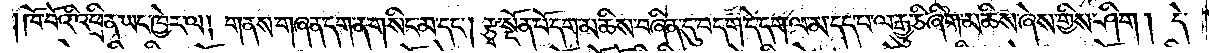ཁོ་བོའི་འཕྲིན་ཡང་ཁྱེར་ལ། གནས་གཞན་དག་ན་གསིང་མ་དང༌། རྩྭ་སྔོན་པོ་དག་མཆིས་བཞིན་དུ་བདག་དེ་དག་ལ་མ་དད་པ་ལ་རྒྱུ་ཅི་ཞིག་མཆིས་ཞེས་གྱིས་ཤིག །དེ་
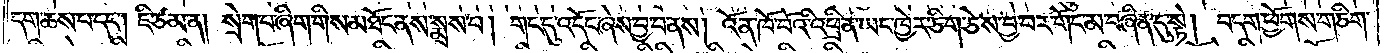དག་ཆས་པ་དང༌། ཇི་ཙམ་ན། སྲེག་པ་ཞིག་གིས་མཐོང་ནས་སྨྲས་པ། གང་དུ་འདོང་ཞེས་བྱ་བ་ནས། འོ་ན་ཁོ་བོའི་འཕྲིན་ཡང་ཁྱེར་ཅིག་ཅེས་བྱ་བར་གོང་མ་བཞིན་དུ་སྟེ། བདག་ཕྱོགས་གཅིག་
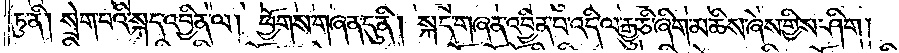ཏུ་ནི། སྲེག་པའི་སྐད་འབྱིན་ལ། ཕྱོགས་གཞན་དུ་ནི། སྐད་གཞན་འབྱིན་པ་འདི་ལ་རྒྱུ་ཅི་ཞིག་མཆིས་ཞེས་གྱིས་ཤིག།
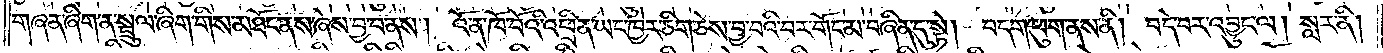གཞན་ཞིག་ན་སྦྲུལ་ཞིག་གིས་མཐོང་ནས་ཞེས་བྱ་བ་ནས། འོ་ན་ཁོ་བོའི་འཕྲིན་ཡང་ཁྱེར་ཅིག་ཅེས་བྱ་བའི་བར་གོང་མ་བཞིན་དུ་སྟེ། བདག་ཕུག་ནས་ནི། བདེ་བར་འབྱུང་ལ། སླར་ནི།
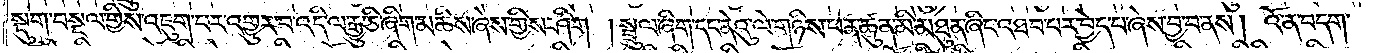སྡུག་བསྔལ་གྱིས་འཇུག་པར་འགྱུར་བ་འདི་ལ་རྒྱུ་ཅི་ཞིག་མཆིས་ཞེས་གྱིས་ཤིག །སྦྲུལ་ཞིག་དང་ནེའུ་ལེ་གཉིས་ཕན་ཚུན་མི་མཐུན་ཞིང་འཐབ་པར་བྱེད་པ་ཞེས་བྱ་བ་ནས། འོ་ན་བདག་
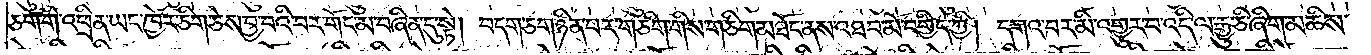ཅག་གི་འཕྲིན་ཡང་ཁྱེར་ཅིག་ཅེས་བྱ་བའི་བར་གོང་མ་བཞིན་དུ་སྟེ། བདག་ཅག་ཉིན་པར་གཅིག་གིས་གཅིག་མཐོང་ནས་འཐབ་མོ་བགྱིད་ཀྱི། དགའ་བར་མི་འགྱུར་བ་འདི་ལ་རྒྱུ་ཅི་ཞིག་མཆིས་
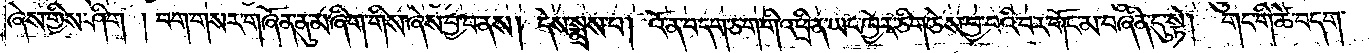ཞེས་གྱིས་ཤིག །བག་གསར་གཞོན་ནུ་མ་ཞིག་གིས་ཞེས་བྱ་བ་ནས། དེས་སྨྲས་པ། འོ་ན་བདག་ཅག་གི་འཕྲིན་ཡང་ཁྱེར་ཅིག་ཅེས་བྱ་བའི་བར་གོང་མ་བཞིན་དུ་སྟེ། གང་གི་ཚེ་བདག་
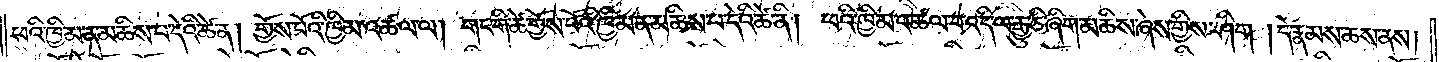ཕའི་ཁྱིམ་ན་མཆིས་པ་དེའི་ཚེ་ན། གྱོས་པོའི་ཁྱིམ་འཚལ་ལ། གང་གི་ཚེ་གྱོས་པོའི་ཁྱིམ་ན་མཆིས་པ་དེའི་ཚེ་ནི། ཕའི་ཁྱིམ་འཚལ་བ་འདི་ལ་རྒྱུ་ཅི་ཞིག་མཆིས་ཞེས་གྱིས་ཤིག །དེ་རྣམས་ཆས་ནས།
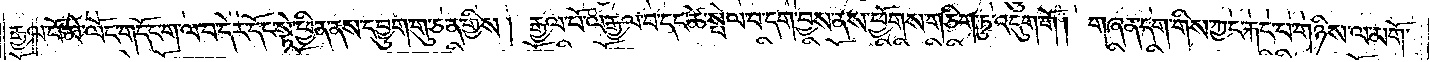རྒྱལ་པོ་མེ་ལོང་གདོང་ག་ལ་བ་དེར་དོང་སྟེ་ཕྱིན་ནས་དབྱུག་གུ་ཅན་གྱིས། རྒྱལ་པོ་ལ་རྒྱལ་བ་དང་ཚེ་སྤེལ་བ་དག་བྱས་ནས་ཕྱོགས་གཅིག་ཏུ་འདུག་གོ། གཞན་དག་གིས་ཀྱང་རྐང་པ་གཉིས་ལ་མགོ་
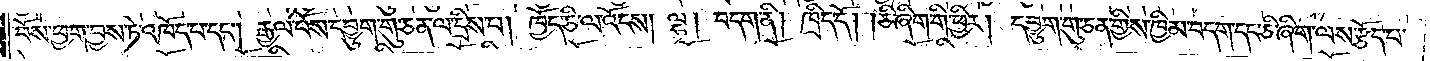བོས་ཕྱག་བྱས་ཏེ་འཁོད་པ་དང༌། རྒྱལ་པོས་དབྱུག་གུ་ཅན་ལ་དྲིས་པ། ཁྱོད་ཅི་ལ་འོངས། ལྷ། བདག་ནི། ཁྲིད་དོ། །ཅི་ཞིག་གི་ཕྱིར། དབྱུག་གུ་ཅན་གྱིས་ཁྱིམ་བདག་དང་ཅི་ཞིག་ལས་རྩོད་པ་
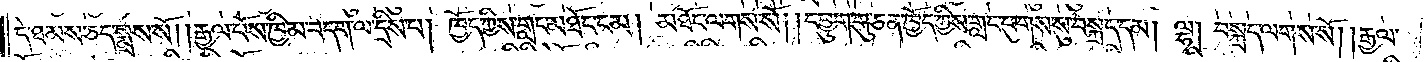དེ་ཐམས་ཅད་སྨྲས་སོ། །རྒྱལ་པོས་ཁྱིམ་བདག་ལ་དྲིས་པ། ཁྱོད་ཀྱིས་གླང་མཐོང་ངམ། མཐོང་ལགས་སོ། །དབྱུག་གུ་ཅན་ཁྱོད་ཀྱིས་གླང་ཕུགས་སུ་བསྐྲད་དམ། ལྷ། བསྐྲད་ལགས་སོ། །རྒྱལ་
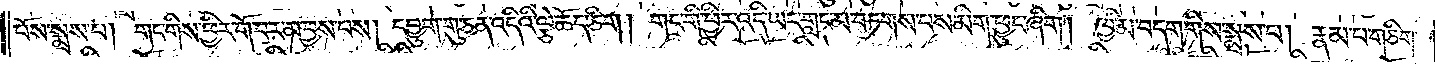པོས་སྨྲས་པ། གང་གིས་ཕྱིར་གོ་བར་མ་བྱས་བས། དབྱུག་གུ་ཅན་འདིའི་ལྕེ་ཆོད་ཅིག །གང་གི་ཕྱིར་འདི་ཡང་གླང་མ་བཏགས་པས་མིག་ཕྱུང་ཞིག །ཁྱིམ་བདག་གིས་སྨྲས་པ། རྣམ་པ་གཅིག་
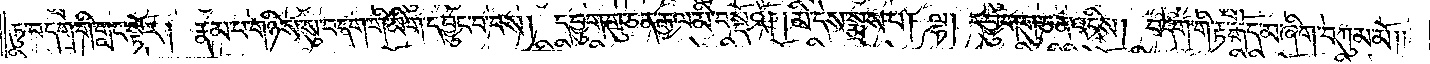ཏུ་བདག་གི་གླང་སྟོར། རྣམ་པ་གཉིས་སུ་བདག་གི་མིག་དབྱུང་བ་བས། དབྱུག་གུ་ཅན་རྒྱལ་མི་བསྡོའོ། །མི་དེས་སྨྲས་པ། ལྷ། དབྱུག་གུ་ཅན་འདིས། བདག་གི་རྟ་རྒོད་མ་ཞིག་བཀུམ་མོ༎
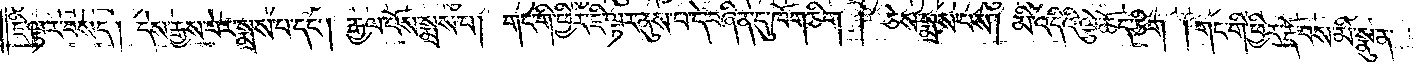ཇི་ལྟར་བསད། དེས་རྒྱས་པར་སྨྲས་པ་དང༌། རྒྱལ་པོས་སྨྲས་པ། གང་གི་ཕྱིར་ཇི་ལྟར་ནུས་པ་དེ་བཞིན་དུ་ཁོག་ཅིག །ཅེས་སྨྲས་པས། མི་འདིའི་ལྕེ་ཆོད་ཅིག །གང་གི་ཕྱིར་རྡོ་བས་མི་སྣུན་
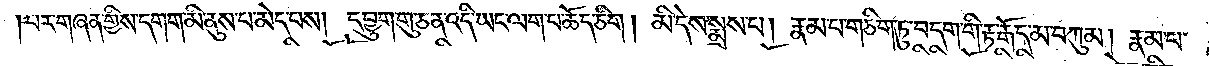པར་གཞན་གྱིས་དགག་མི་ནུས་པ་མེད་པས། དབྱུག་གུ་ཅན་འདི་ཡང་ལག་པ་ཆོད་ཅིག །མི་དེས་སྨྲས་པ། རྣམ་པ་གཅིག་ཏུ་བདག་གི་རྟ་རྒོད་མ་བཀུམ། རྣམ་པ་
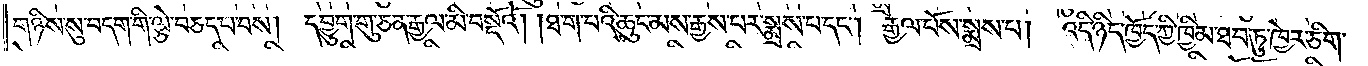གཉིས་སུ་བདག་གི་ལྕེ་བཅད་པ་བས། དབྱུག་གུ་ཅན་རྒྱལ་མི་བསྔོའོ། །ཐ་ག་པའི་ཆུང་མས་རྒྱས་པར་སྨྲས་པ་དང༌། རྒྱལ་པོས་སྨྲས་པ།  འདི་ཉིད་ཁྱོད་ཀྱི་ཁྱིམ་ཐབ་ཏུ་ཁྱེར་ཅིག་
